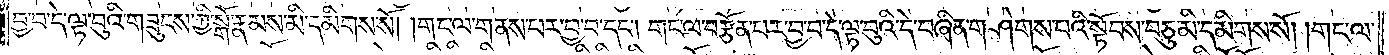བྱ་བ་དེ་ལྟ་བུའི་གཟུངས་ཀྱི་སྒོ་རྣམས་མི་དམིགས་སོ། །གང་ལ་གནས་པར་བྱ་བ་དང༌། གང་ལ་བརྩོན་པར་བྱ་བ་དེ་ལྟ་བུའི་དེ་བཞིན་གཤེགས་པའི་སྟོབས་བཅུ་མི་དམིགས་སོ། །གང་ལ་
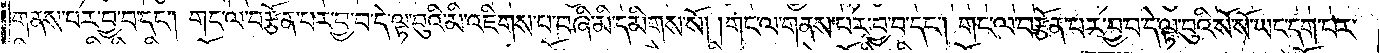གནས་པར་བྱ་བ་དང༌། གང་ལ་བརྩོན་པར་བྱ་བ་དེ་ལྟ་བུའི་མི་འཇིགས་པ་བཞི་མི་དམིགས་སོ། །གང་ལ་གནས་པར་བྱ་བ་དང༌། གང་ལ་བརྩོན་པར་བྱ་བ་དེ་ལྟ་བུའི་སོ་སོ་ཡང་དག་པར་
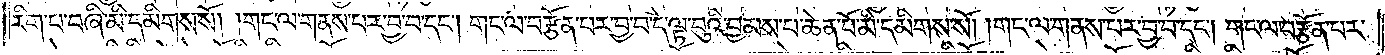རིག་པ་བཞི་མི་དམིགས་སོ། །གང་ལ་གནས་པར་བྱ་བ་དང༌། གང་ལ་བརྩོན་པར་བྱ་བ་དེ་ལྟ་བུའི་བྱམས་པ་ཆེན་པོ་མི་དམིགས་སོ། །གང་ལ་གནས་པར་བྱ་བ་དང༌། གང་ལ་བརྩོན་པར་
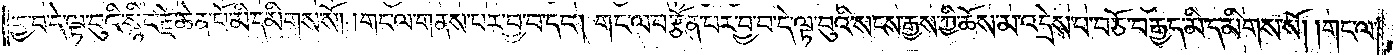བྱ་བ་དེ་ལྟ་བུའི་སྙིང་རྗེ་ཆེན་པོ་མི་དམིགས་སོ། །གང་ལ་གནས་པར་བྱ་བ་དང༌། གང་ལ་བརྩོན་པར་བྱ་བ་དེ་ལྟ་བུའི་སངས་རྒྱས་ཀྱི་ཆོས་མ་འདྲེས་པ་བཅོ་བརྒྱད་མི་དམིགས་སོ། །གང་ལ་
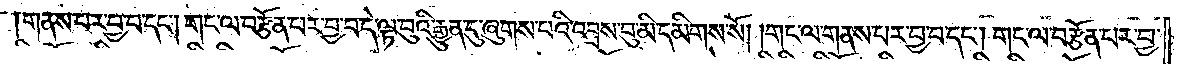གནས་པར་བྱ་བ་དང༌། གང་ལ་བརྩོན་པར་བྱ་བ་དེ་ལྟ་བུའི་རྒྱུན་དུ་ཞུགས་པའི་འབྲས་བུ་མི་དམིགས་སོ། །གང་ལ་གནས་པར་བྱ་བ་དང༌། གང་ལ་བརྩོན་པར་བྱ་
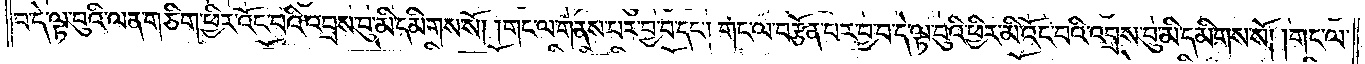བ་དེ་ལྟ་བུའི་ལན་གཅིག་ཕྱིར་འོང་བའི་འབྲས་བུ་མི་དམིགས་སོ། །གང་ལ་གནས་པར་བྱ་བ་དང༌། གང་ལ་བརྩོན་པར་བྱ་བ་དེ་ལྟ་བུའི་ཕྱིར་མི་འོང་བའི་འབྲས་བུ་མི་དམིགས་སོ། །གང་ལ་
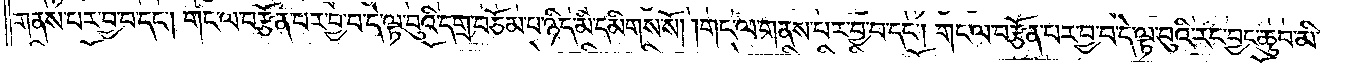གནས་པར་བྱ་བ་དང༌། གང་ལ་བརྩོན་པར་བྱ་བ་དེ་ལྟ་བུའི་དགྲ་བཅོམ་པ་ཉིད་མི་དམིགས་སོ། །གང་ལ་གནས་པར་བྱ་བ་དང༌། གང་ལ་བརྩོན་པར་བྱ་བ་དེ་ལྟ་བུའི་རང་བྱང་ཆུབ་མི་
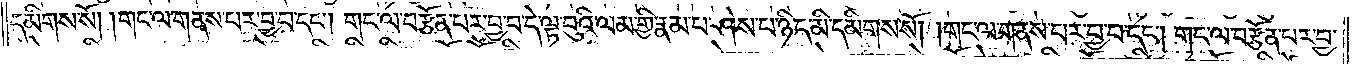དམིགས་སོ། །གང་ལ་གནས་པར་བྱ་བ་དང༌། གང་ལ་བརྩོན་པར་བྱ་བ་དེ་ལྟ་བུའི་ལམ་གྱི་རྣམ་པ་ཤེས་པ་ཉིད་མི་དམིགས་སོ། །གང་ལ་གནས་པར་བྱ་བ་དང༌། གང་ལ་བརྩོན་པར་བྱ་
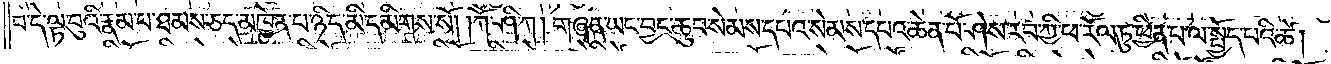བ་དེ་ལྟ་བུའི་རྣམ་པ་ཐམས་ཅད་མཁྱེན་པ་ཉིད་མི་དམིགས་སོ། །ཀཽ་ཤི་ཀ། གཞན་ཡང་བྱང་ཆུབ་སེམས་དཔའ་སེམས་དཔའ་ཆེན་པོ་ཤེས་རབ་ཀྱི་ཕ་རོལ་ཏུ་ཕྱིན་པ་ལ་སྤྱོད་པའི་ཚེ།
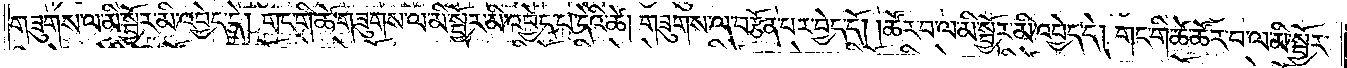གཟུགས་ལ་མི་སྦྱོར་མི་འབྱེད་དེ། གང་གི་ཚེ་གཟུགས་ལ་མི་སྦྱོར་མི་འབྱེད་པ་དེའི་ཚེ། གཟུགས་ལ་བརྩོན་པར་བྱེད་དོ། །ཚོར་བ་ལ་མི་སྦྱོར་མི་འབྱེད་དེ། གང་གི་ཚེ་ཚོར་བ་ལ་མི་སྦྱོར་
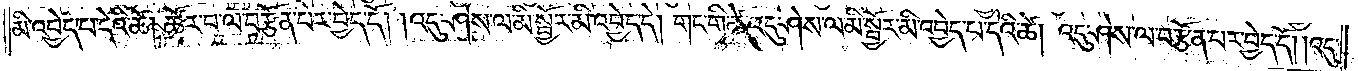མི་འབྱེད་པ་དེའི་ཚེ། ཚོར་བ་ལ་བརྩོན་པར་བྱེད་དོ། །འདུ་ཤེས་ལ་མི་སྦྱོར་མི་འབྱེད་དེ། གང་གི་ཚེ་འདུ་ཤེས་ལ་མི་སྦྱོར་མི་འབྱེད་པ་དེའི་ཚེ། འདུ་ཤེས་ལ་བརྩོན་པར་བྱེད་དོ། །འདུ་
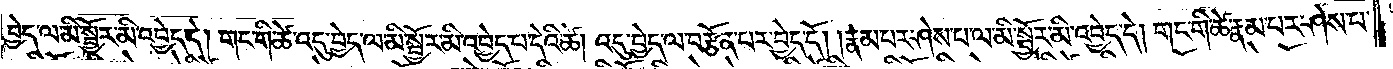བྱེད་ལ་མི་སྦྱོར་མི་འབྱེད་དེ། གང་གི་ཚེ་འདུ་བྱེད་ལ་མི་སྦྱོར་མི་འབྱེད་པ་དེའི་ཚེ། འདུ་བྱེད་ལ་བརྩོན་པར་བྱེད་དོ། །རྣམ་པར་ཤེས་པ་ལ་མི་སྦྱོར་མི་འབྱེད་དེ། གང་གི་ཚེ་རྣམ་པར་ཤེས་པ་
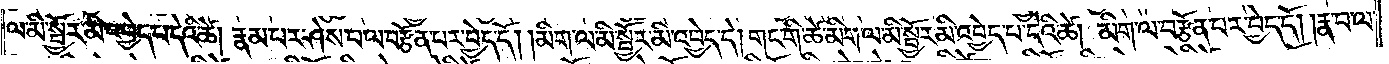ལ་མི་སྦྱོར་མི་འབྱེད་པ་དེའི་ཚེ། རྣམ་པར་ཤེས་པ་ལ་བརྩོན་པར་བྱེད་དོ། །མིག་ལ་མི་སྦྱོར་མི་འབྱེད་དེ། གང་གི་ཚེ་མིག་ལ་མི་སྦྱོར་མི་འབྱེད་པ་དེའི་ཚེ། མིག་ལ་བརྩོན་པར་བྱེད་དོ། །རྣ་བ་ལ་
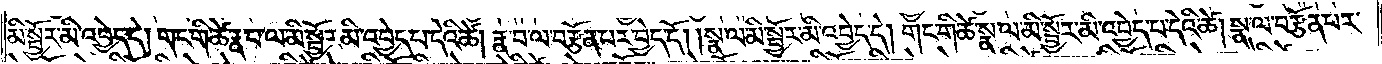མི་སྦྱོར་མི་འབྱེད་དེ། གང་གི་ཚེ་རྣ་བ་ལ་མི་སྦྱོར་མི་འབྱེད་པ་དེའི་ཚེ། རྣ་བ་ལ་བརྩོན་པར་བྱེད་དོ། །སྣ་ལ་མི་སྦྱོར་མི་འབྱེད་དེ། གང་གི་ཚེ་སྣ་ལ་མི་སྦྱོར་མི་འབྱེད་པ་དེའི་ཚེ། སྣ་ལ་བརྩོན་པར་
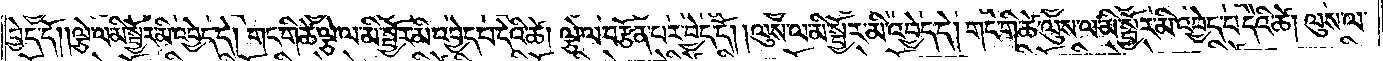བྱེད་དོ། །ལྕེ་ལ་མི་སྦྱོར་མི་འབྱེད་དེ། གང་གི་ཚེ་ལྕེ་ལ་མི་སྦྱོར་མི་འབྱེད་པ་དེའི་ཚེ། ལྕེ་ལ་བརྩོན་པར་བྱེད་དོ། །ལུས་ལ་མི་སྦྱོར་མི་འབྱེད་དེ། གང་གི་ཚེ་ལུས་ལ་མི་སྦྱོར་མི་འབྱེད་པ་དེའི་ཚེ། ལུས་ལ་
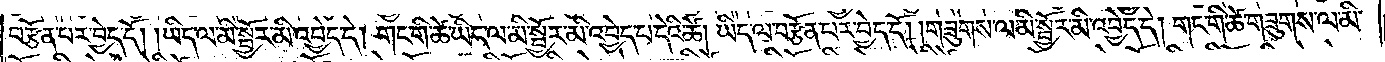བརྩོན་པར་བྱེད་དོ། །ཡིད་ལ་མི་སྦྱོར་མི་འབྱེད་དེ། གང་གི་ཚེ་ཡིད་ལ་མི་སྦྱོར་མི་འབྱེད་པ་དེའི་ཚེ། ཡིད་ལ་བརྩོན་པར་བྱེད་དོ། །གཟུགས་ལ་མི་སྦྱོར་མི་འབྱེད་དེ། གང་གི་ཚེ་གཟུགས་ལ་མི་
